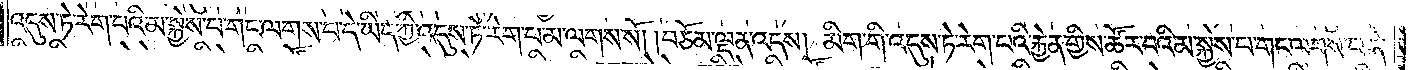འདུས་ཏེ་རེག་པའི་མ་སྐྱེས་པ་གང་ལགས་པ་དེ་ཡིད་ཀྱི་འདུས་ཏེ་རེག་པ་མ་ལགས་སོ། །བཅོམ་ལྡན་འདས། མིག་གི་འདུས་ཏེ་རེག་པའི་རྐྱེན་གྱིས་ཚོར་བའི་མ་སྐྱེས་པ་གང་ལགས་པ་དེ་
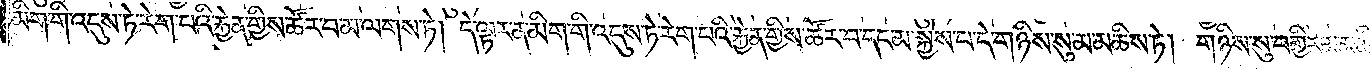མིག་གི་འདུས་ཏེ་རེག་པའི་རྐྱེན་གྱིས་ཚོར་བ་མ་ལགས་ཏེ། དེ་ལྟར་ན་མིག་གི་འདུས་ཏེ་རེག་པའི་རྐྱེན་གྱིས་ཚོར་བ་དང་མ་སྐྱེས་པ་དེ་གཉིས་སུ་མ་མཆིས་ཏེ། གཉིས་སུ་བགྱིར་མ་མཆིས་
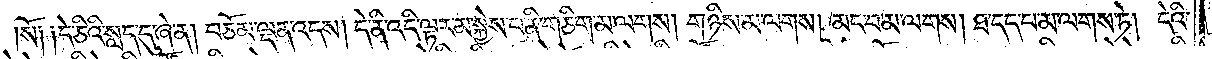སོ༑ ༑དེ་ཅིའི་སླད་དུ་ཞེ་ན། བཅོམ་ལྡན་འདས། དེ་ནི་འདི་ལྟར་མ་སྐྱེས་པ་ནི་གཅིག་མ་ལགས། གཉིས་མ་ལགས། མང་བ་མ་ལགས། ཐ་དད་པ་མ་ལགས་ཏེ། དེའི་
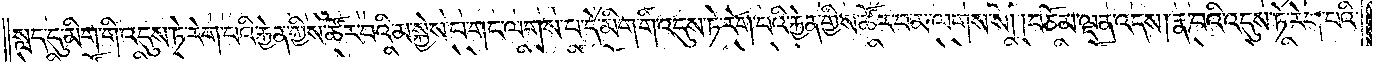སླད་དུ་མིག་གི་འདུས་ཏེ་རེག་པའི་རྐྱེན་གྱིས་ཚོར་བའི་མ་སྐྱེས་པ་གང་ལགས་པ་དེ་མིག་གི་འདུས་ཏེ་རེག་པའི་རྐྱེན་གྱིས་ཚོར་བ་མ་ལགས་སོ། །བཅོམ་ལྡན་འདས། རྣ་བའི་འདུས་ཏེ་རེག་པའི་
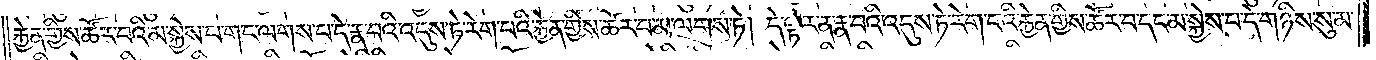རྐྱེན་གྱིས་ཚོར་བའི་མ་སྐྱེས་པ་གང་ལགས་པ་དེ་རྣ་བའི་འདུས་ཏེ་རེག་པའི་རྐྱེན་གྱིས་ཚོར་བ་མ་ལགས་ཏེ། དེ་ལྟར་ན་རྣ་བའི་འདུས་ཏེ་རེག་པའི་རྐྱེན་གྱིས་ཚོར་བ་དང་མ་སྐྱེས་པ་དེ་གཉིས་སུ་མ་
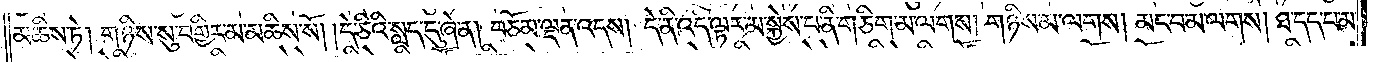མཆིས་ཏེ། གཉིས་སུ་བགྱིར་མ་མཆིས་སོ། །དེ་ཅིའི་སླད་དུ་ཞེ་ན། བཅོམ་ལྡན་འདས། དེ་ནི་འདི་ལྟར་མ་སྐྱེས་པ་ནི་གཅིག་མ་ལགས། གཉིས་མ་ལགས། མང་བ་མ་ལགས། ཐ་དད་པ་མ་
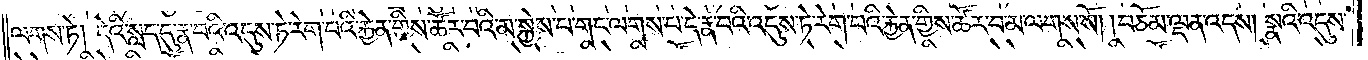ལགས་ཏེ། དེའི་སླད་དུ་རྣ་བའི་འདུས་ཏེ་རེག་པའི་རྐྱེན་གྱིས་ཚོར་བའི་མ་སྐྱེས་པ་གང་ལགས་པ་དེ་རྣ་བའི་འདུས་ཏེ་རེག་པའི་རྐྱེན་གྱིས་ཚོར་བ་མ་ལགས་སོ། །བཅོམ་ལྡན་འདས། སྣའི་འདུས་
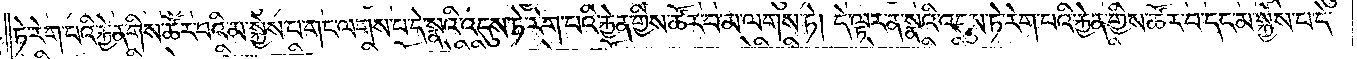ཏེ་རེག་པའི་རྐྱེན་གྱིས་ཚོར་བའི་མ་སྐྱེས་པ་གང་ལགས་པ་དེ་སྣའི་འདུས་ཏེ་རེག་པའི་རྐྱེན་གྱིས་ཚོར་བ་མ་ལགས་ཏེ། དེ་ལྟར་ན་སྣའི་འདུས་ཏེ་རེག་པའི་རྐྱེན་གྱིས་ཚོར་བ་དང་མ་སྐྱེས་པ་དེ་
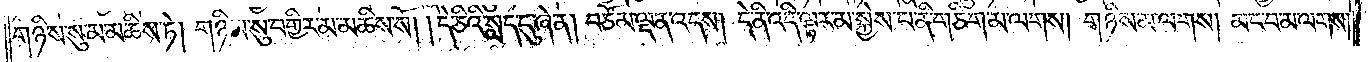གཉིས་སུ་མ་མཆིས་ཏེ། གཉིས་སུ་བགྱིར་མ་མཆིས་སོ། །དེ་ཅིའི་སླད་དུ་ཞེ་ན། བཅོམ་ལྡན་འདས། དེ་ནི་འདི་ལྟར་མ་སྐྱེས་པ་ནི་གཅིག་མ་ལགས། གཉིས་མ་ལགས། མང་བ་མ་ལགས།
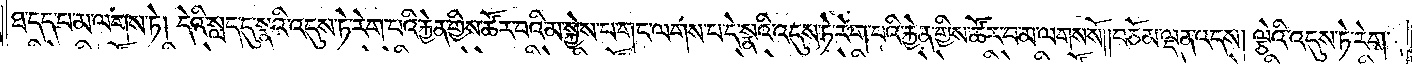ཐ་དད་པ་མ་ལགས་ཏེ། དེའི་སླད་དུ་སྣའི་འདུས་ཏེ་རེག་པའི་རྐྱེན་གྱིས་ཚོར་བའི་མ་སྐྱེས་པ་གང་ལགས་པ་དེ་སྣའི་འདུས་ཏེ་རེག་པའི་རྐྱེན་གྱིས་ཚོར་བ་མ་ལགས་སོ། །བཅོམ་ལྡན་འདས། ལྕེའི་འདུས་ཏེ་རེག་
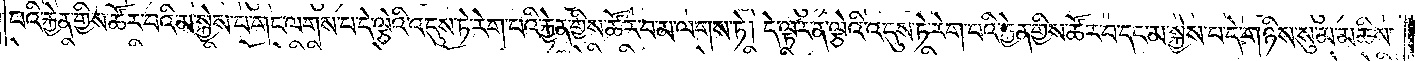པའི་རྐྱེན་གྱིས་ཚོར་བའི་མ་སྐྱེས་པ་གང་ལགས་པ་དེ་ལྕེའི་འདུས་ཏེ་རེག་པའི་རྐྱེན་གྱིས་ཚོར་བ་མ་ལགས་ཏེ། དེ་ལྟར་ན་ལྕེའི་འདུས་ཏེ་རེག་པའི་རྐྱེན་གྱིས་ཚོར་བ་དང་མ་སྐྱེས་པ་དེ་གཉིས་སུ་མ་མཆིས་
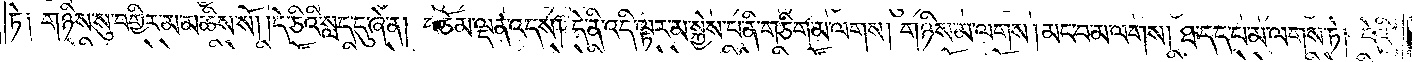ཏེ། གཉིས་སུ་བགྱིར་མ་མཆིས་སོ། །དེ་ཅིའི་སླད་དུ་ཞེ་ན། བཅོམ་ལྡན་འདས། དེ་ནི་འདི་ལྟར་མ་སྐྱེས་པ་ནི་གཅིག་མ་ལགས། གཉིས་མ་ལགས། མང་བ་མ་ལགས། ཐ་དད་པ་མ་ལགས་ཏེ། དེའི་
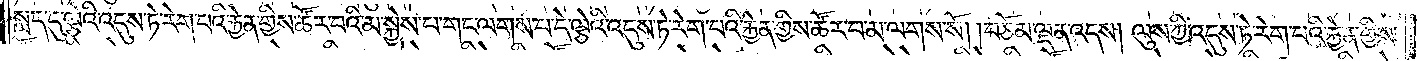སླད་དུ་ལྕེའི་འདུས་ཏེ་རེག་པའི་རྐྱེན་གྱིས་ཚོར་བའི་མ་སྐྱེས་པ་གང་ལགས་པ་དེ་ལྕེའི་འདུས་ཏེ་རེག་པའི་རྐྱེན་གྱིས་ཚོར་བ་མ་ལགས་སོ། །བཅོམ་ལྡན་འདས། ལུས་ཀྱི་འདུས་ཏེ་རེག་པའི་རྐྱེན་གྱིས་
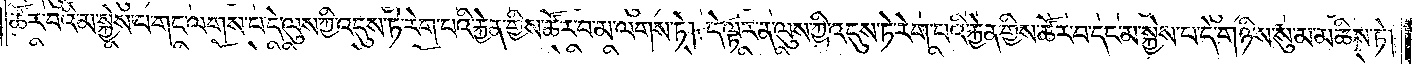ཚོར་བའི་མ་སྐྱེས་པ་གང་ལགས་པ་དེ་ལུས་ཀྱི་འདུས་ཏེ་རེག་པའི་རྐྱེན་གྱིས་ཚོར་བ་མ་ལགས་ཏེ། དེ་ལྟར་ན་ལས་ཀྱི་འདུས་ཏེ་རེག་པའི་རྐྱེན་གྱིས་ཚོར་བ་དང་མ་སྐྱེས་པ་དེ་གཉིས་སུ་མ་མཆིས་ཏེ།
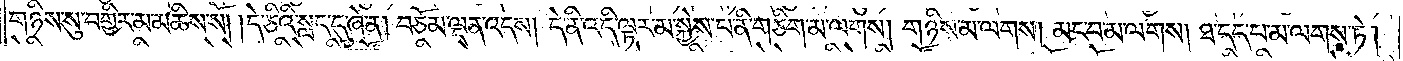གཉིས་སུ་བགྱིར་མ་མཆིས་སོ། །དེ་ཅིའི་སླད་དུ་ཞེ་ན། བཅོམ་ལྡན་འདས། དེ་ནི་འདི་ལྟར་མ་སྐྱེས་པ་ནི་གཅིག་མ་ལགས། གཉིས་མ་ལགས། མང་བ་མ་ལགས། ཐ་དད་པ་མ་ལགས་ཏེ།
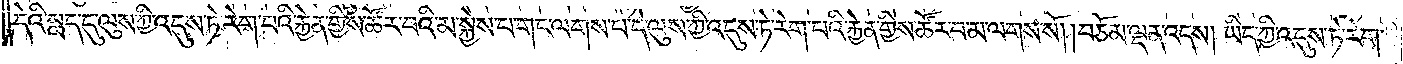དེའི་སླད་དུ་ལུས་ཀྱི་འདུས་ཏེ་རེག་པའི་རྐྱེན་གྱིས་ཚོར་བའི་མ་སྐྱེས་པ་གང་ལགས་པ་དེ་ལུས་ཀྱི་འདུས་ཏེ་རེག་པའི་རྐྱེན་གྱིས་ཚོར་བ་མ་ལགས་སོ། །བཅོམ་ལྡན་འདས། ཡིད་ཀྱི་འདུས་ཏེ་རེག་
